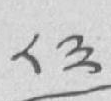༨༣
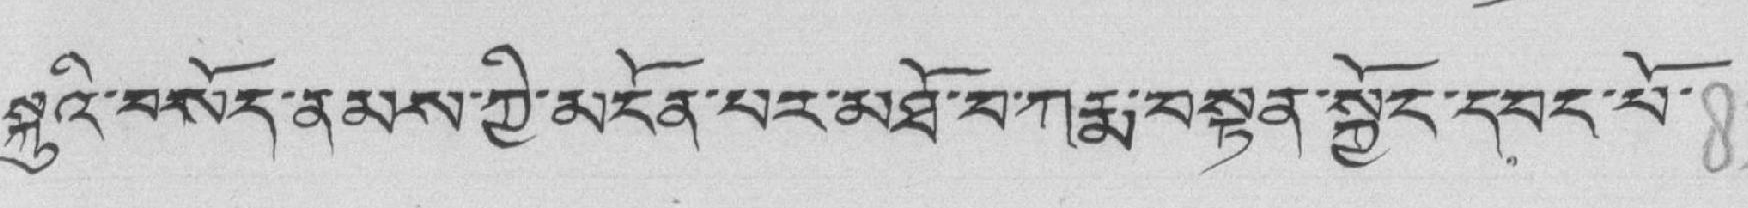སྐུའི་བསོད་ནམས་ཀྱི་མངོན་པར་མཐོ་བ་ཀརྨ་བསྟན་སྐྱོང་དབང་པོ་
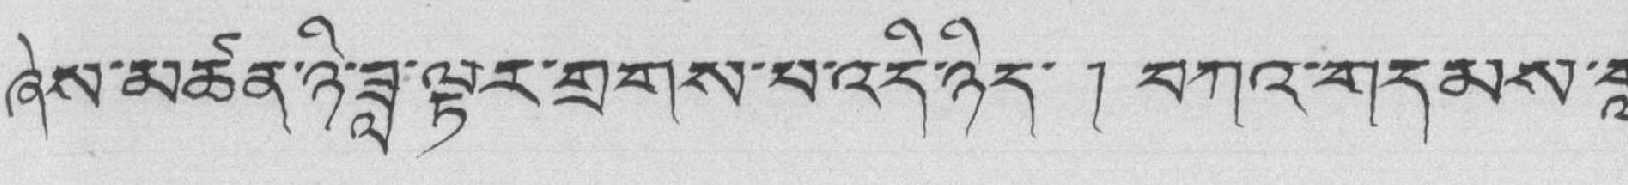ཞེས་མཚན་ཉི་ཟླ་ལྟར་གྲགས་པ་འདི་ཉིད་ ། བཀའ་གདམས་གླེགས་
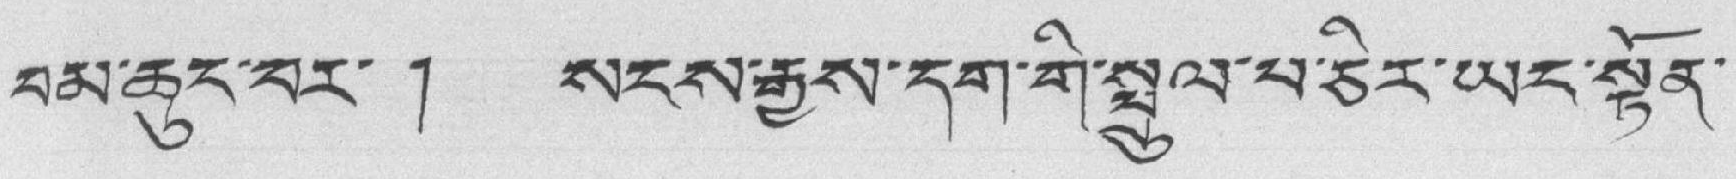བམ་ཆུང་བར་ ། སངས་རྒྱས་དག་གི་སྤྲུལ་པ་ཅིར་ཡང་སྟོན་
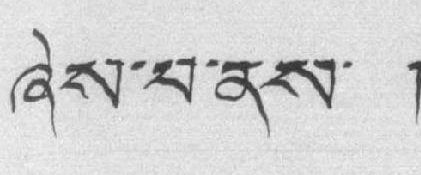ཞེས་པ་ནས་ །
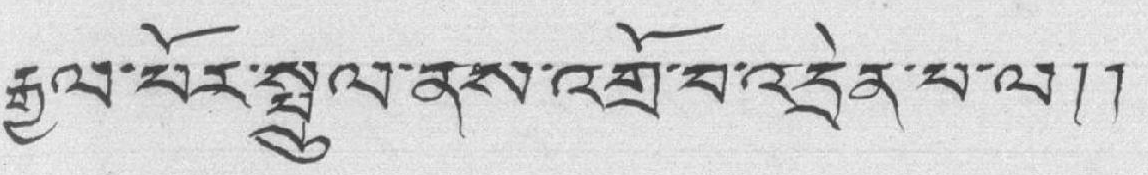རྒྱལ་པོར་སྤྲུལ་ནས་འགྲོ་བ་འདྲེན་པོ་ལ།།
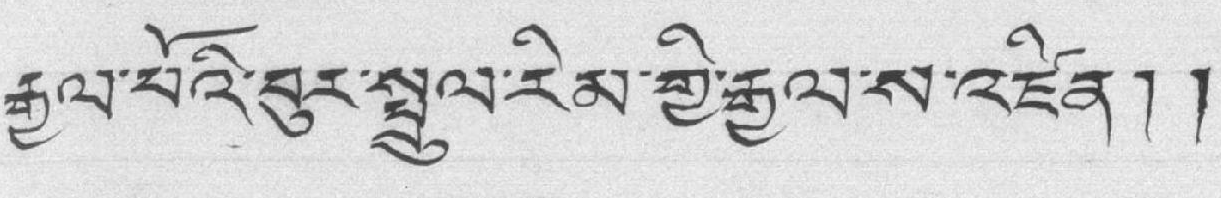རྒྱལ་པོའི་བུར་སྤྲུལ་རིམ་གྱི་རྒྱལ་ས་འཛིན།།
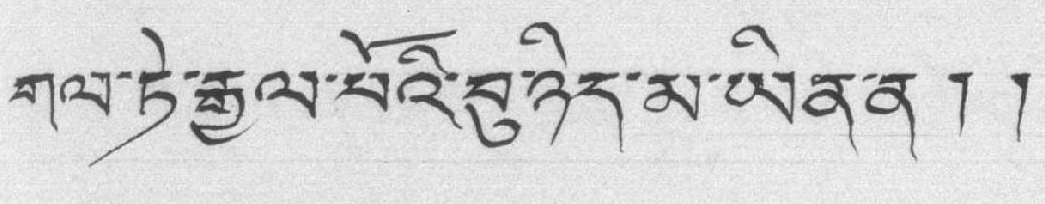གལ་ཏེ་རྒྱལ་པོའི་བུ་ཉིད་མ་ཡིན་ན།།
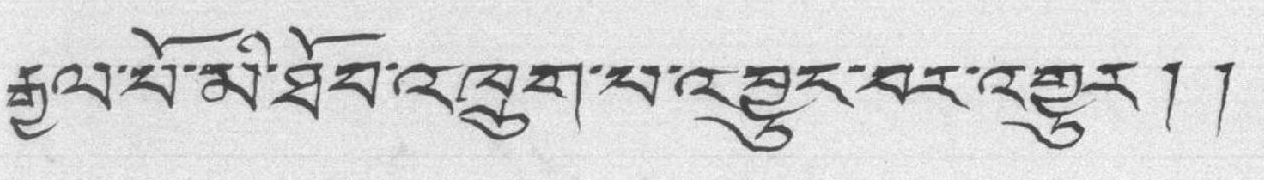རྒྱལ་པོ་མི་ཐོབ་འཁྲུག་པ་འབྱུང་བར་འགྱུར།།
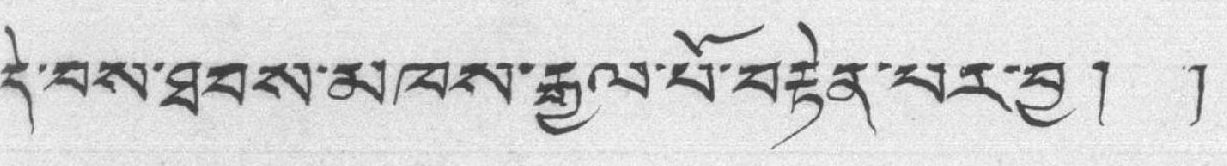དེ་བས་ཐབས་མཁས་རྒྱལ་པོ་བརྟེན་པར་བྱ། །
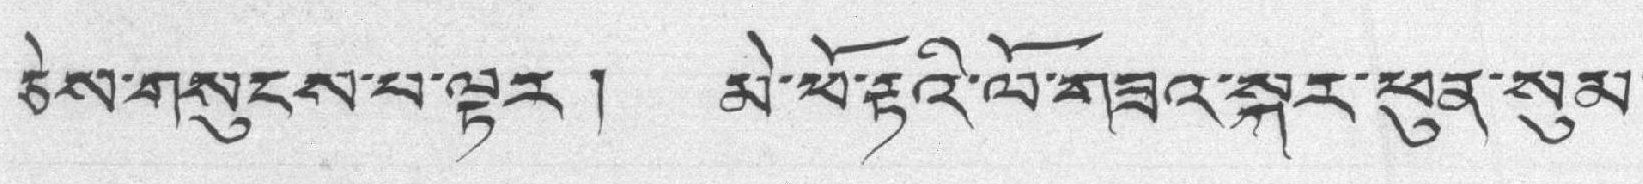ཅེས་གསུངས་པ་ལྟར། མེ་ཕོ་རྟའི་ལོ་གཟའ་སྐར་ཕུན་སུམ་
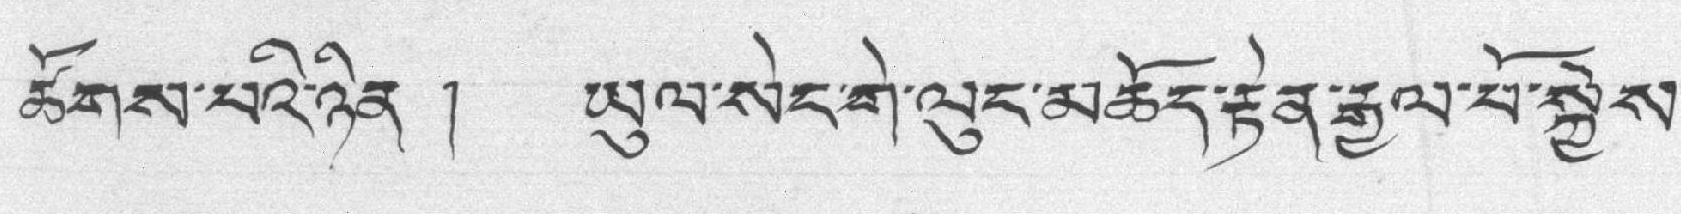ཚོགས་པའི་ཉིན ། ཡུལ་སེང་གེ་ལུང་མཆོད་རྟེན་རྒྱལ་པོ་སྐྱེས་
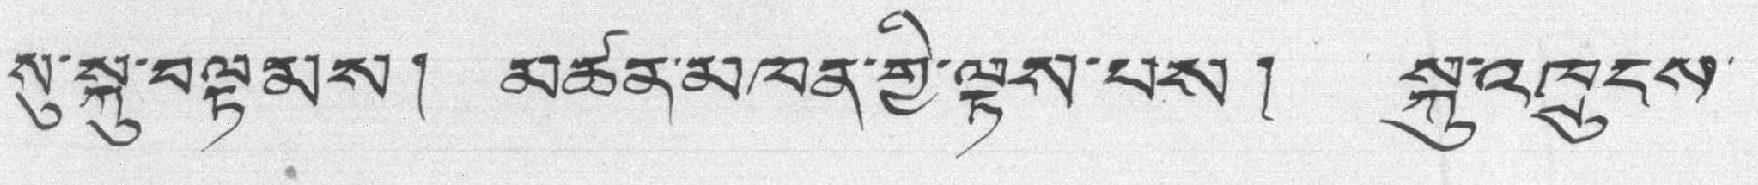སུ་སྐུ་བལྟམས། མཚན་མཁན་གྱི་ལྟས་པས། སྐུ་འཁྲུངས་
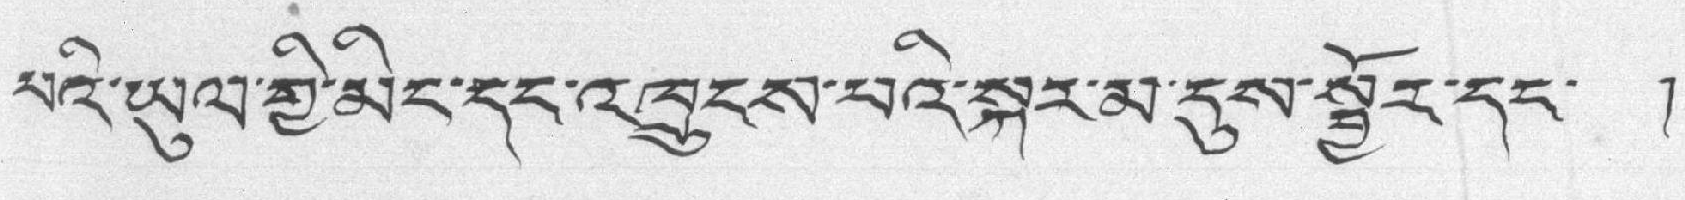པའི་ཡུལ་གྱི་མིང་དང་འཁྲུངས་པའི་སྐར་མ་དུས་སྦྱོར་དང་ །
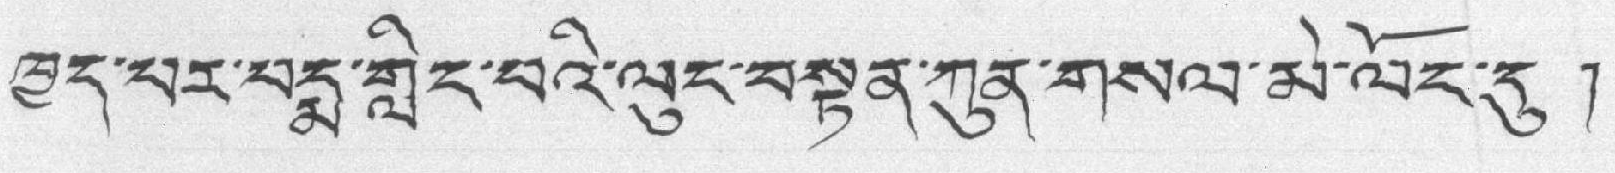ཁྱད་པར་པདྨ་གླིང་པའི་ལུང་བསྟན་ཀུན་གསལ་མེ་ལོང་དུ །
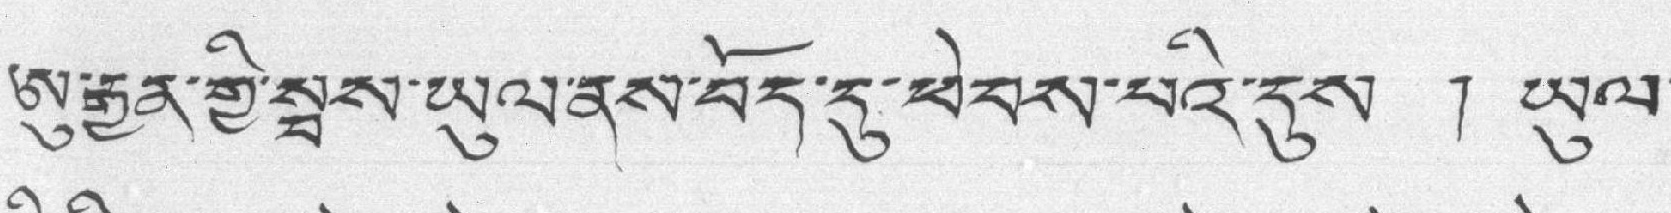ཨུ་རྒྱན་གྱི་སྦས་ཡུལ་ནས་བོད་དུ་ཕེབས་པའི་དུས ། ཡུལ་
